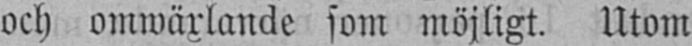och omwäxlande som möjligt. Utom
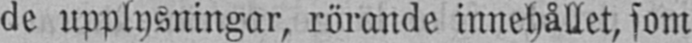de upplysningar, rörande innehållet, som
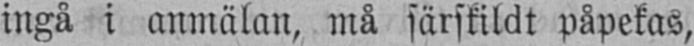ingå i anmälan, må särskildt påpekas,
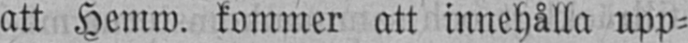att Hemw. kommer att innehålla upp-
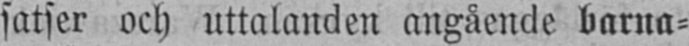satser och uttalanden angående barna-
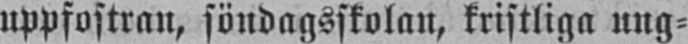uppfostran, söndagsskolan, kristliga ung-
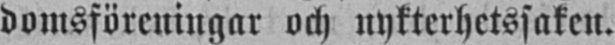domsföreningar och nykterhetssaken.
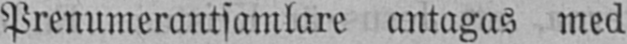Prenumerantsamlare antagas med
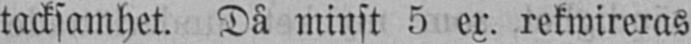tacksamhet. Då minst 5 ex. rekwireras
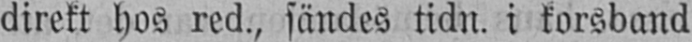direkt hos red., sändes tidn. i korsband
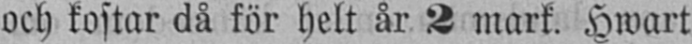och kostar då för helt år 2 mark. Hwart
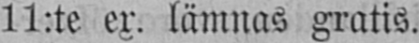11:te ex. lämnas gratis.
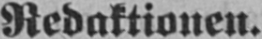Redaktionen.
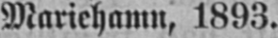Mariehamn, 1893.
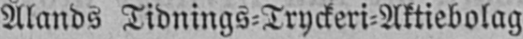Ålands Tidnings-Tryckeri-Aktiebolag.
